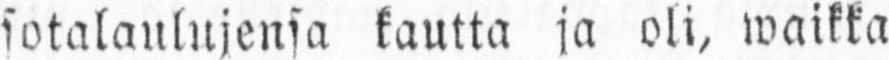sotalaulujensa kautta ja oli, waikka
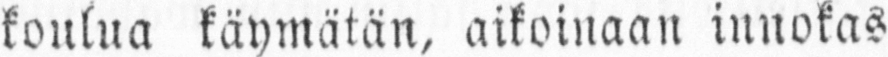koulua käymätän, aikoinaan innokas
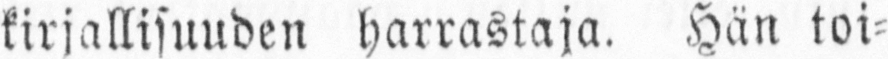kirjallisuuden harrastaja. Hän toi-
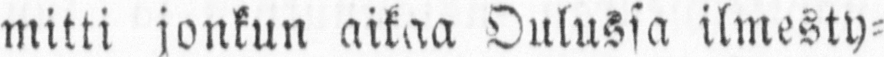mitti jonkun aikaa Oulussa ilmesty-
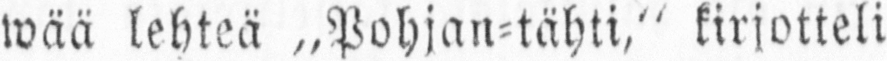wää lehteä „Pohjan-tähti," kirjotteli
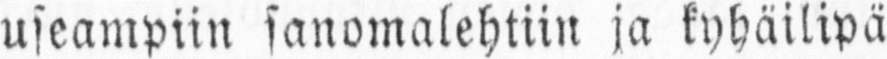useampiin sanomalehtiin ja kyhäilipä
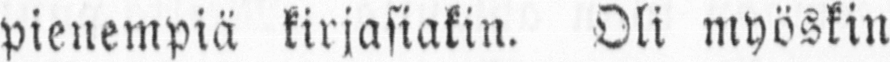pienempiä kirjasiakin. Oli myöskin
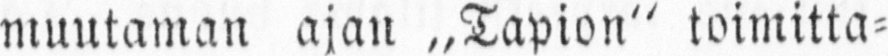muutaman ajan „Tapion" toimitta-
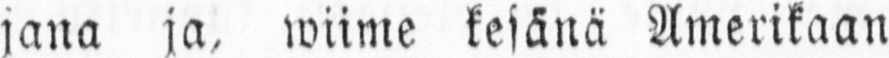jana ja, wiime kesänä Amerikaan
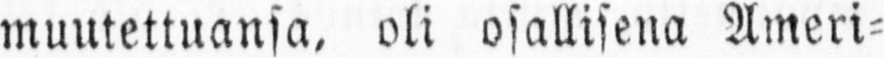muutettuansa, oli osallisena Ameri-
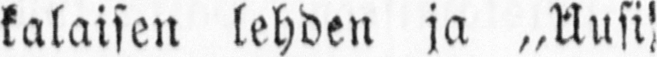kalaisen lehden ja „Uusi kotimaa"
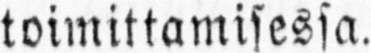toimittamisessa.
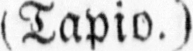(Tapio.)
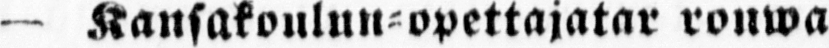— Kansakoulun -opettajatar rouwa
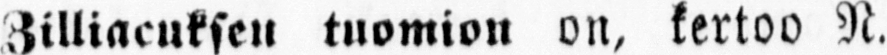Zilliacuksen tuomion on, kertoo N.
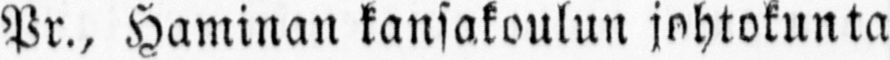Pr., Haminan kansakoulun johtokunta
